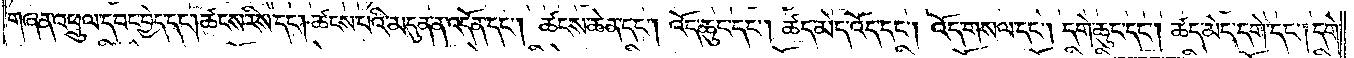གཞན་འཕྲུལ་དབང་བྱེད་དང༌། ཚངས་རིས་དང༌། ཚངས་པའི་མདུན་ན་འདོན་དང༌། ཚངས་ཆེན་དང༌། འོད་ཆུང་དང༌། ཚད་མེད་འོད་དང༌། འོད་གསལ་དང༌། དགེ་ཆུང་དང༌། ཚད་མེད་དགེ་དང༌། དགེ་
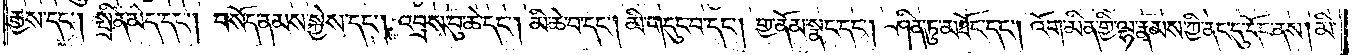རྒྱས་དང༌། སྤྲིན་མེད་དང༌། བསོད་ནམས་སྐྱེས་དང༌། འབྲས་བུ་ཆེ་དང༌། མི་ཆེ་བ་དང༌། མི་གདུང་བ་དང༌། གྱ་ནོམ་སྣང་དང༌། ཤིན་ཏུ་མཐོང་དང༌། འོག་མིན་གྱི་ལྷ་རྣམས་ཀྱི་ནང་དུ་དོང་ནས། མི་
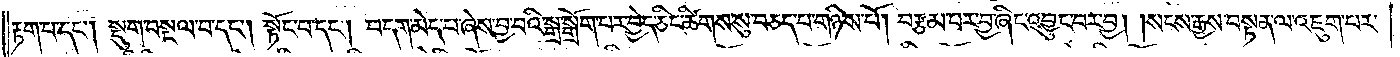རྟག་པ་དང༌། སྡུག་བསྔལ་བ་དང༌། སྟོང་པ་དང༌། བདག་མེད་པ་ཞེས་བྱ་བའི་སྒྲ་སྒྲོག་པར་བྱེད་ཅིང་ཚིགས་སུ་བཅད་པ་གཉིས་པོ། བརྩམ་པར་བྱ་ཞིང་འབྱུང་བར་བྱ། །སངས་རྒྱས་བསྟན་ལ་འཇུག་པར་
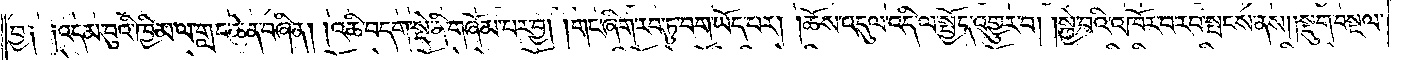བྱ༑ ༑འདམ་བུའི་ཁྱིམ་ལ་གླང་ཆེན་བཞིན། །འཆི་བདག་སྡེ་ནི་གཞོམ་པར་བྱ། །གང་ཞིག་རབ་ཏུ་བག་ཡོད་པར། །ཆོས་འདུལ་འདི་ལ་སྤྱོད་འགྱུར་བ། །སྐྱེ་བའི་འཁོར་བ་རབ་སྤངས་ནས། །སྡུག་བསྔལ་
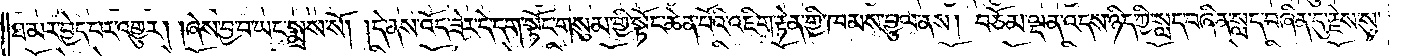ཐ་མར་བྱེད་པར་འགྱུར། །ཞེས་བྱ་བ་ཡང་སྨྲས་སོ། །དེ་ནས་འོད་ཟེར་དེ་དག་སྟོང་གསུམ་གྱི་སྟོང་ཆེན་པོའི་འཇིག་རྟེན་གྱི་ཁམས་བྱུལ་ནས། བཅོམ་ལྡན་འདས་ཉིད་ཀྱི་སླད་བཞིན་སླད་བཞིན་དུ་རྗེས་སུ་
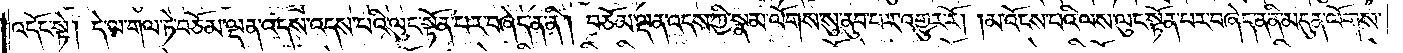འདོང་སྟེ། དེ་ལ་གལ་ཏེ་བཅོམ་ལྡན་འདས་འདས་པའི་ལུང་སྟོན་པར་བཞེད་ན་ནི། བཅོམ་ལྡན་འདས་ཀྱི་སྣམ་ལོགས་སུ་ནུབ་པར་འགྱུར་རོ། །མ་འོངས་པའི་ལས་ལུང་སྟོན་པར་བཞེད་ན་ནི་མདུན་ལོགས་
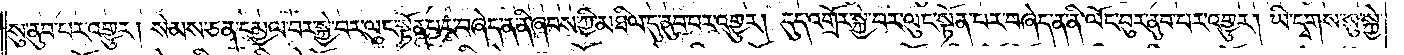སུ་ནུབ་པར་འགྱུར། སེམས་ཅན་དམྱལ་བར་སྐྱེ་བར་ལུང་སྟོན་པར་བཞེད་ན་ནི་ཞབས་ཀྱི་མཐིལ་དུ་ནུབ་པར་འགྱུར། དུད་འགྲོར་སྐྱེ་བར་ལུང་སྟོན་པར་བཞེད་ན་ནི་ལོང་བུར་ནུབ་པར་འགྱུར། ཡི་དྭགས་སུ་སྐྱེ་
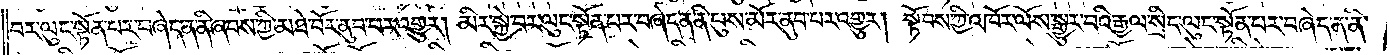བར་ལུང་སྟོན་པར་བཞེད་ན་ནི་ཞབས་ཀྱི་མཐེ་བོར་ནུབ་པར་འགྱུར། མིར་སྐྱེ་བར་ལུང་སྟོན་པར་བཞེད་ན་ནི་པུས་མོར་ནུབ་པར་འགྱུར། སྟོབས་ཀྱི་འཁོར་ལོས་སྒྱུར་བའི་རྒྱལ་སྲིད་ལུང་སྟོན་པར་བཞེད་ན་ནི་
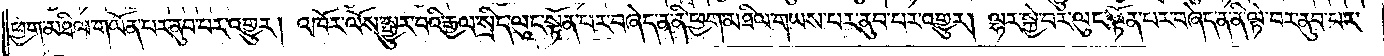ཕྱག་མཐིལ་གཡོན་པར་ནུབ་པར་འགྱུར། འཁོར་ལོས་སྒྱུར་བའི་རྒྱལ་སྲིད་ལུང་སྟོན་པར་བཞེད་ན་ནི་ཕྱག་མཐིལ་གཡས་པར་ནུབ་པར་འགྱུར། ལྷར་སྐྱེ་བར་ལུང་སྟོན་པར་བཞེད་ན་ནི་ལྟེ་བར་ནུབ་པར་
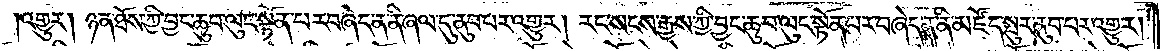འགྱུར། ཉན་ཐོས་ཀྱི་བྱང་ཆུབ་ལུང་སྟོན་པར་བཞེད་ན་ནི་ཞལ་དུ་ནུབ་པར་འགྱུར། རང་སངས་རྒྱས་ཀྱི་བྱང་ཆུབ་ལུང་སྟོན་པར་བཞེད་ན་ནི་མཛོད་སྤུར་ནུབ་པར་འགྱུར།
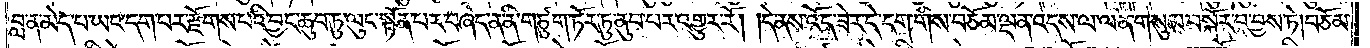བླ་ན་མེད་པ་ཡང་དག་པར་རྫོགས་པའི་བྱང་ཆུབ་ཏུ་ལུང་སྟོན་པར་བཞེད་ན་ནི་གཙུག་ཏོར་ཏུ་ནུབ་པར་འགྱུར་རོ། །དེ་ནས་འོད་ཟེར་དེ་དག་གིས་བཅོམ་ལྡན་འདས་ལ་ལན་གསུམ་བསྐོར་བ་བྱས་ཏེ། བཅོམ་
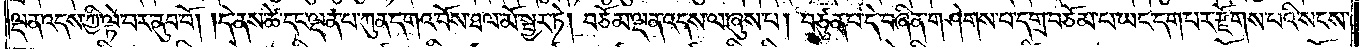ལྡན་འདས་ཀྱི་ལྟེ་བར་ནུབ་བོ། །དེ་ནས་ཚེ་དང་ལྡན་པ་ཀུན་དགའ་བོས་ཐལ་མོ་སྦྱར་ཏེ། བཅོམ་ལྡན་འདས་ལ་ཞུས་པ། བཙུན་པ་དེ་བཞིན་གཤེགས་པ་དགྲ་བཅོམ་པ་ཡང་དག་པར་རྫོགས་པའི་སངས་
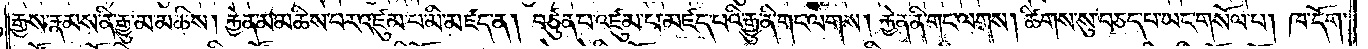རྒྱས་རྣམས་ནི་རྒྱུ་མ་མཆིས། རྐྱེན་མ་མཆིས་པར་འཛུམ་པ་མི་མཛད་ན། བཙུན་པ་འཛུམ་པ་མཛད་པའི་རྒྱུ་ནི་གང་ལགས། རྐྱེན་ནི་གང་ལགས། ཚིགས་སུ་བཅད་པ་ཡང་གསོལ་པ། ཁ་དོག་
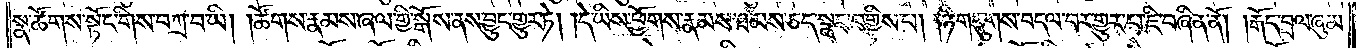སྣ་ཚོགས་སྟོང་གིས་བཀྲ་བ་ཡི། །ཚོགས་རྣམས་ཞལ་གྱི་སྒོས་ནས་བྱུང་གྱུར་ཏེ། །དེ་ཡིས་ཕྱོགས་རྣམས་ཐམས་ཅད་སྣང་བགྱིས་པ། །ཉི་གདུགས་བདལ་བར་གྱུར་པ་ཇི་བཞིན་ནོ། །རྒོད་བྲལ་ཞུམ་
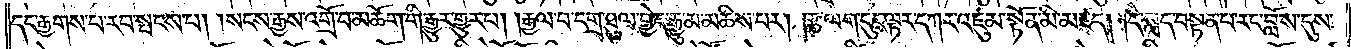དང་རྒྱགས་པ་རབ་སྤངས་པ། །སངས་རྒྱས་འགྲོ་བ་མཆོག་གི་རྒྱུར་གྱུར་པ། །རྒྱལ་བ་དགྲ་ཐུལ་བྱེད་རྒྱུ་མ་མཆིས་པར། །རྩ་ལག་དུང་ལྟར་དཀར་འཛུམ་སྟོན་མི་མཛད། །དེ་སླད་བསྟན་པ་རང་བློས་དུས་
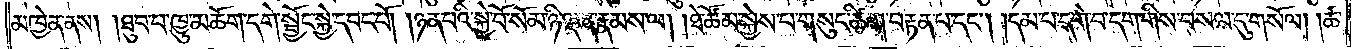མཁྱེན་ནས། །ཐུབ་པ་ཁྱུ་མཆོག་དགེ་སྦྱོང་སྐྱེ་དབང་པོ། །ཉན་པའི་སྐྱེ་བོ་སོམ་ཉི་ལྡན་རྣམས་ལ། །ཐེ་ཚོམ་སྐྱེས་པ་གསུང་ཚིག་བརྟན་པ་དང༌། །དམ་པ་དགེ་བ་དག་གིས་བསལ་དུ་གསོལ། །ཚ་
